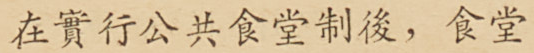在實行公共食堂制後，食堂
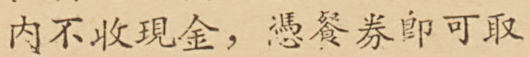內不收現金，憑餐券卽可取
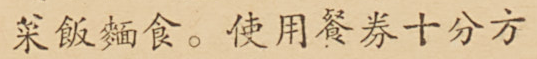菜飯麵食。使用餐券十分方
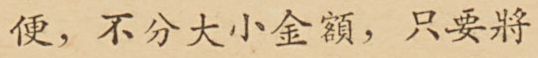便，不分大小金額，只要將
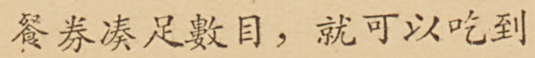餐券湊足數目，就可以吃到
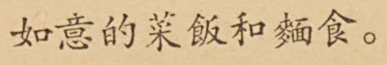如意的菜飯和麵食。
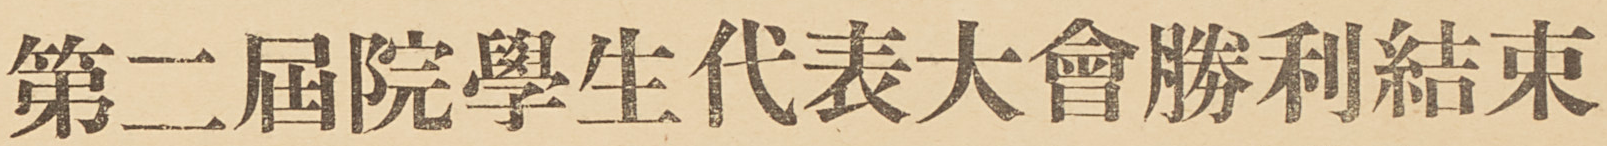第二屆院學生代表大會勝利結束
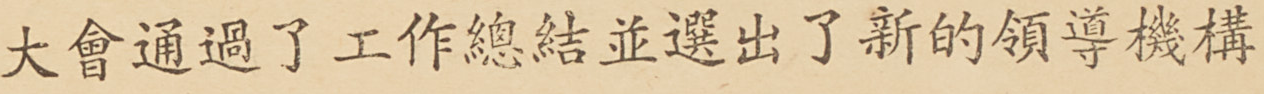大會通過了工作總結並選出了新的領導機構
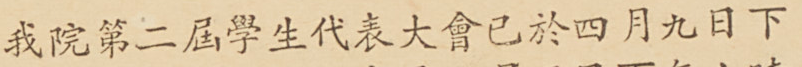我院第二屆學生代表大會已於四月九日下
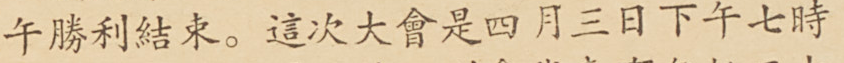午勝利結束。這次大會是四月三日下午七時
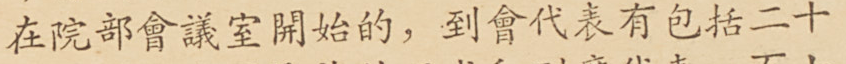在院部會議室開始的，到會代表有包括二十
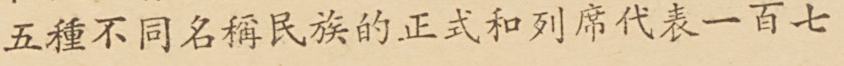五種不同名稱民族的正式和列席代表一百七
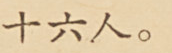十六人。
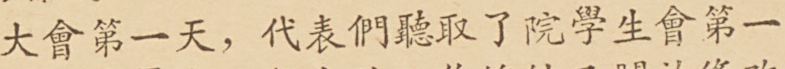大會第一天，代表們聽取了院學生會第一
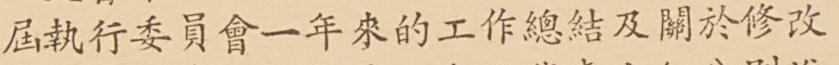屆執行委員會一年來的工作總結及關於修改
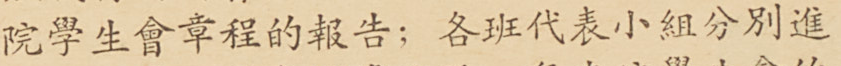院學生會章程的報告：各班代表小組分別進
